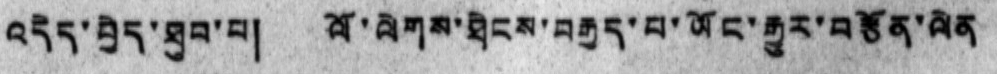འདེད་བྱེད་ཐུབ་པ། ལོ་ལེགས་ཐེངས་བརྒྱད་པ་ཡོངས་རྒྱུར་བརྩོན་ལེན
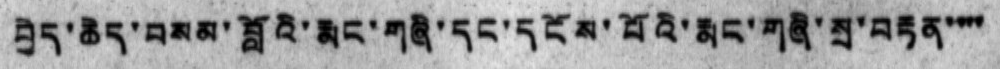བྱེད་ཆེད་བསམ་བློའི་རྨང་གཞི་དང་དངོས་པོའི་རྨང་གཞི་སྲ་བརྟན་་་་
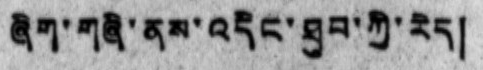ཞིག་གཞི་ནས་འདིང་ཐུབ་ཀྱི་རེད།
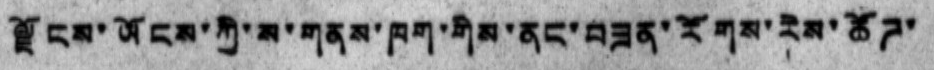ལྗོངས་ཡོངས་ཀྱི་ས་གནས་ཁག་གིས་ནང་བཟན་རོགས་རེས་ཚོཌ་
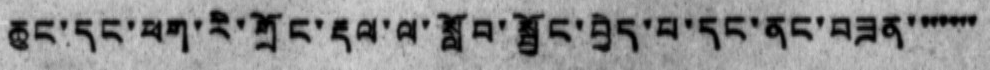ཆུང་དང་ཕག་རི་གྲོང་རྡལ་ལ་སློབ་སྦྱོང་བྱེད་པ་དང་ནང་བཟན་ ་་་་་་
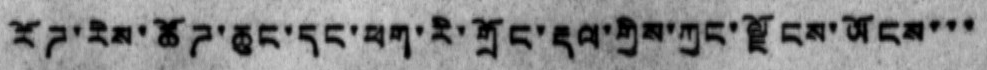རོཌ་རེས་ཚོཌ་ཆུང་དང་ཕག་རི་གྲོང་རྡལ་གྱིས་ཀྱང་ལྗོངས་ཡོངས་་་
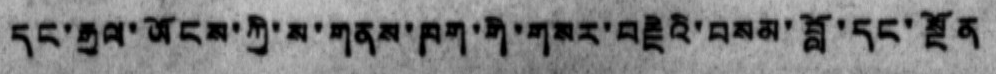དང་རྒྱལ་ཡོངས་ཀྱི་ས་གནས་ཁག་གི་གསར་བརྗེའི་བསམ་བློ་དང་སྔོན
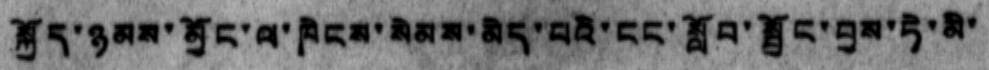སྐྱོད་ཉམས་མྱོང་ལ་ཁེངས་སེམས་མེད་པའི་ངང་སློབ་སྦྱོང་བྱས་ཏེ་མི་
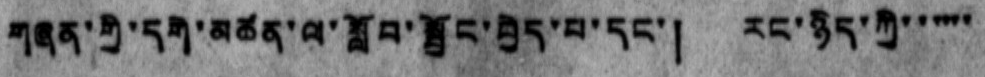གཞན་གྱི་དགེ་མཚན་ལ་སློབ་སྦྱོང་བྱེད་པ་དང་། རང་ཉིད་ཀྱི་་་་་་
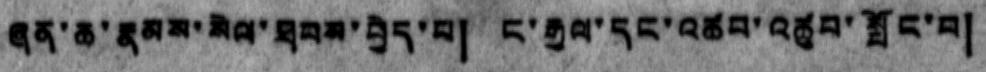ཞན་ཆ་རྣམས་སེལ་ཐབས་བྱེད་པ། ང་རྒྱལ་དང་འཚབ་འཚུབ་སློང་བ།
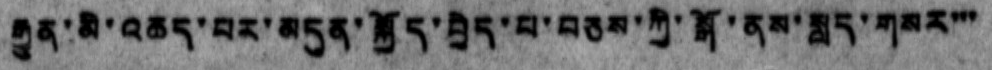རྒྱུན་མི་འཆད་པར་མདུན་སྐྱོད་བྱེད་པ་བཅས་ཀྱི་སྒོ་ནས་སླད་གསར་་་
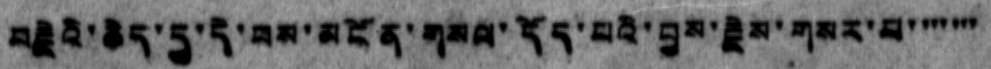བརྗེའི་ཆེད་དུ་དེ་བས་མངོན་གསལ་དོད་པའི་བྱས་རྗེས་གསར་པ་ ་་་་་་
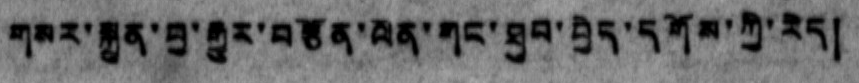གནར་སྐྲུན་བྱ་རྒྱུར་བརྩོན་ལེན་གང་ཐུབ་བྱེད་དགོས་ཀྱི་རེད།
